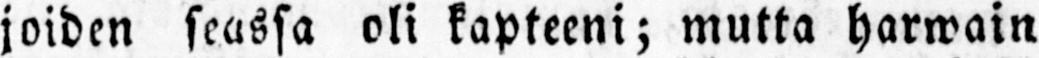joiden seassa oli kapteeni; mutta harwain
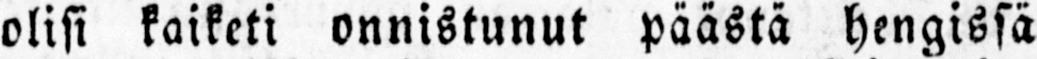olisi kaiketi onnistunut päästä hengissä
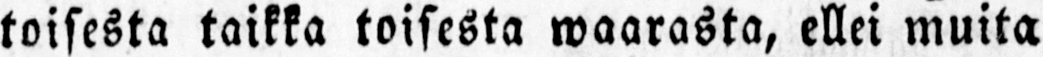toisesta taikka toisesta waarasta, ellei muita
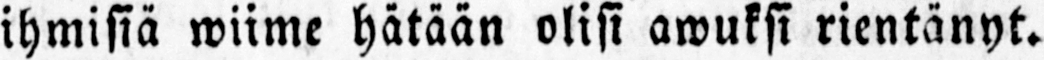ihmisiä wiime hätään olisi awuksi rientänyt.
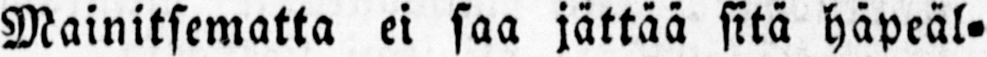Mainitsematta ei saa jättää sitä häpeäl-
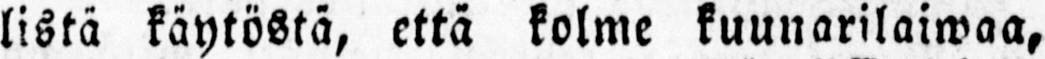listä käytöstä, että kolme kuunarilaiwaa,
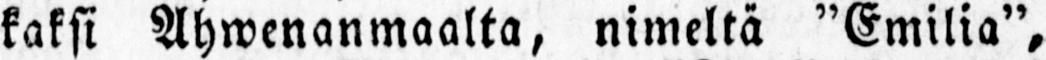kaksi Ahwenanmaalta, nimeltä "Emilia",
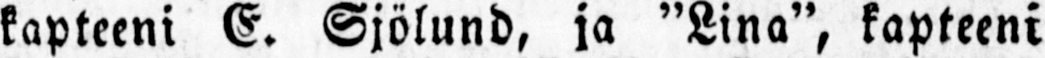kapteeni E. Sjölund, ja "Lina", kapteeni
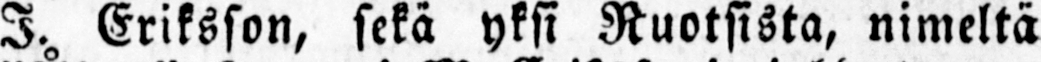J. Eriksson, sekä yksi Ruotsista, nimeltä
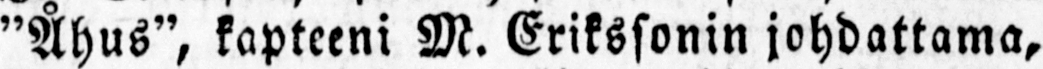"Åhus", kapteeni M. Erikssonin johdattama,
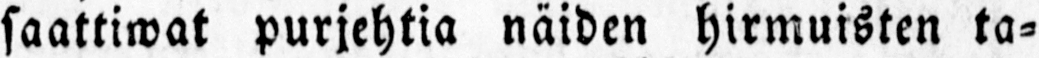saattiwat purjehtia näiden hirmuisten ta-
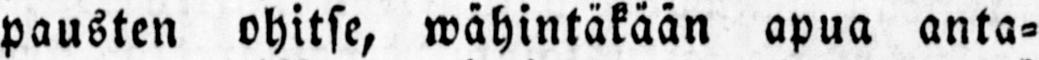pausten ohitse, wähintäkään apua anta-
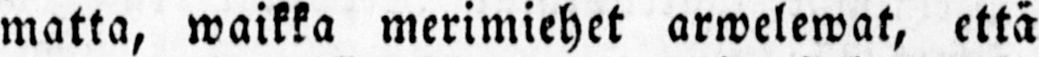matta, waikka merimiehet arwelerwat, että
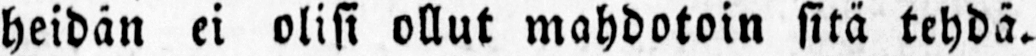heidän ei olisi ollut mahdotoin sitä tehdä.
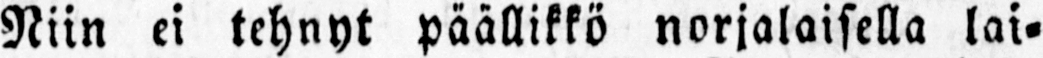Niin ei tehnyt päällikkö norjalaisella lai-
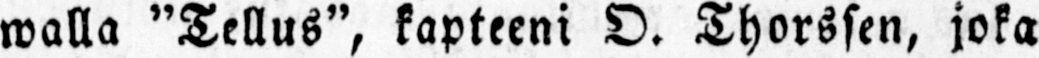walla "Tellus", kapteeni O. Thorssen, joka
